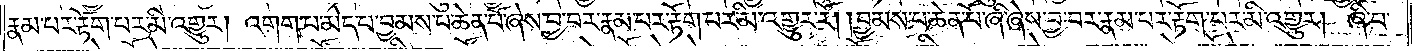རྣམ་པར་རྟོག་པར་མི་འགྱུར། འགག་པ་མེད་པ་བྱམས་པ་ཆེན་པོ་ཞེས་བྱ་བར་རྣམ་པར་རྟོག་པར་མི་འགྱུར་རོ། །བྱམས་པ་ཆེན་པོ་ཞི་ཞེས་བྱ་བར་རྣམ་པར་རྟོག་པར་མི་འགྱུར། ཞི་བ་
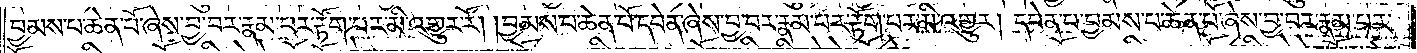བྱམས་པ་ཆེན་པོ་ཞེས་བྱ་བར་རྣམ་པར་རྟོག་པར་མི་འགྱུར་རོ། །བྱམས་པ་ཆེན་པོ་དབེན་ཞེས་བྱ་བར་རྣམ་པར་རྟོག་པར་མི་འགྱུར། དབེན་པ་བྱམས་པ་ཆེན་པོ་ཞེས་བྱ་བར་རྣམ་པར་
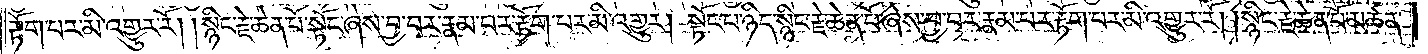རྟོག་པར་མི་འགྱུར་རོ། །སྙིང་རྗེ་ཆེན་པོ་སྟོང་ཞེས་བྱ་བར་རྣམ་པར་རྟོག་པར་མི་འགྱུར། སྟོང་པ་ཉིད་སྙིང་རྗེ་ཆེན་པོ་ཞེས་བྱ་བར་རྣམ་པར་རྟོག་པར་མི་འགྱུར་རོ། །སྙིང་རྗེ་ཆེན་པོ་མཚན་
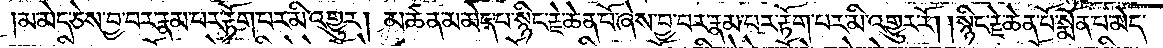མ་མེད་ཅེས་བྱ་བར་རྣམ་པར་རྟོག་པར་མི་འགྱུར། མཚན་མ་མེད་པ་སྙིང་རྗེ་ཆེན་པོ་ཞེས་བྱ་བར་རྣམ་པར་རྟོག་པར་མི་འགྱུར་རོ། །སྙིང་རྗེ་ཆེན་པོ་སྨོན་པ་མེད་
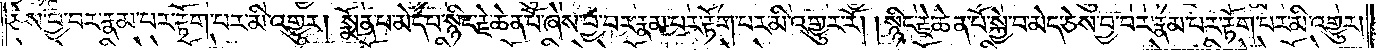ཅེས་བྱ་བར་རྣམ་པར་རྟོག་པར་མི་འགྱུར། སྨོན་པ་མེད་པ་སྙིང་རྗེ་ཆེན་པོ་ཞེས་བྱ་བར་རྣམ་པར་རྟོག་པར་མི་འགྱུར་རོ། །སྙིང་རྗེ་ཆེན་པོ་སྐྱེ་བ་མེད་ཅེས་བྱ་བར་རྣམ་པར་རྟོག་པར་མི་འགྱུར།
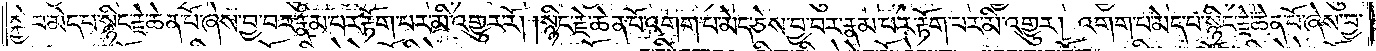སྐྱེ་བ་མེད་པ་སྙིང་རྗེ་ཆེན་པོ་ཞེས་བྱ་བར་རྣམ་པར་རྟོག་པར་མི་འགྱུར་རོ། །སྙིང་རྗེ་ཆེན་པོ་འགག་པ་མེད་ཅེས་བྱ་བར་རྣམ་པར་རྟོག་པར་མི་འགྱུར། འགག་པ་མེད་པ་སྙིང་རྗེ་ཆེན་པོ་ཞེས་བྱ་
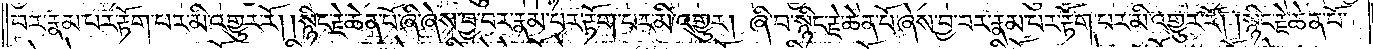བར་རྣམ་པར་རྟོག་པར་མི་འགྱུར་རོ། །སྙིང་རྗེ་ཆེན་པོ་ཞི་ཞེས་བྱ་བར་རྣམ་པར་རྟོག་པར་མི་འགྱུར། ཞི་བ་སྙིང་རྗེ་ཆེན་པོ་ཞེས་བྱ་བར་རྣམ་པར་རྟོག་པར་མི་འགྱུར་རོ། །སྙིང་རྗེ་ཆེན་པོ་
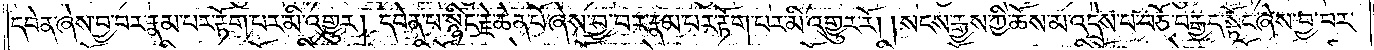དབེན་ཞེས་བྱ་བར་རྣམ་པར་རྟོག་པར་མི་འགྱུར། དབེན་པ་སྙིང་རྗེ་ཆེན་པོ་ཞེས་བྱ་བར་རྣམ་པར་རྟོག་པར་མི་འགྱུར་རོ། །སངས་རྒྱས་ཀྱི་ཆོས་མ་འདྲེས་པ་བཅོ་བརྒྱད་སྟོང་ཞེས་བྱ་བར་
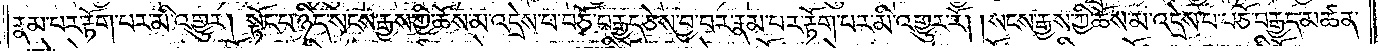རྣམ་པར་རྟོག་པར་མི་འགྱུར། སྟོང་པ་ཉིད་སངས་རྒྱས་ཀྱི་ཆོས་མ་འདྲེས་པ་བཅོ་བརྒྱད་ཅེས་བྱ་བར་རྣམ་པར་རྟོག་པར་མི་འགྱུར་རོ། །སངས་རྒྱས་ཀྱི་ཆོས་མ་འདྲེས་པ་བཅོ་བརྒྱད་མཚན་
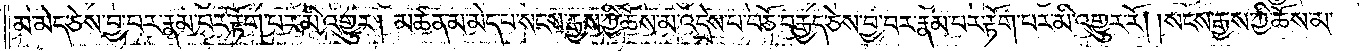མ་མེད་ཅེས་བྱ་བར་རྣམ་པར་རྟོག་པར་མི་འགྱུར། མཚན་མ་མེད་པ་སངས་རྒྱས་ཀྱི་ཆོས་མ་འདྲེས་པ་བཅོ་བརྒྱད་ཅེས་བྱ་བར་རྣམ་པར་རྟོག་པར་མི་འགྱུར་རོ། །སངས་རྒྱས་ཀྱི་ཆོས་མ་
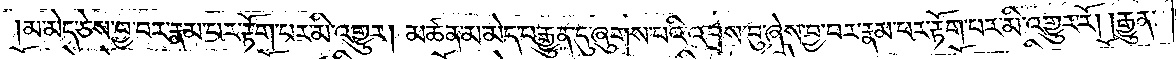མ་མེད་ཅེས་བྱ་བར་རྣམ་པར་རྟོག་པར་མི་འགྱུར། མཚན་མ་མེད་པ་རྒྱུན་དུ་ཞུགས་པའི་འབྲས་བུ་ཞེས་བྱ་བར་རྣམ་པར་རྟོག་པར་མི་འགྱུར་རོ། །རྒྱུན་
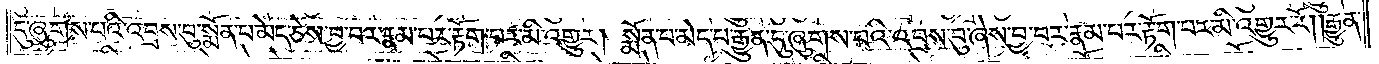དུ་ཞུགས་པའི་འབྲས་བུ་སྨོན་པ་མེད་ཅེས་བྱ་བར་རྣམ་པར་རྟོག་པར་མི་འགྱུར། སྨོན་པ་མེད་པ་རྒྱུན་དུ་ཞུགས་པའི་འབྲས་བུ་ཞེས་བྱ་བར་རྣམ་པར་རྟོག་པར་མི་འགྱུར་རོ། །རྒྱུན་
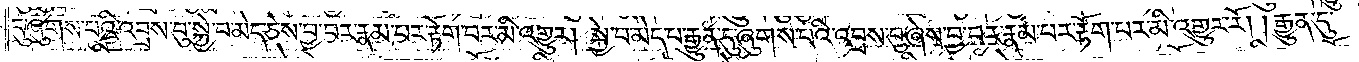དུ་ཞུགས་པའི་འབྲས་བུ་སྐྱེ་བ་མེད་ཅེས་བྱ་བར་རྣམ་པར་རྟོག་པར་མི་འགྱུར། སྐྱེ་བ་མེད་པ་རྒྱུན་དུ་ཞུགས་པའི་འབྲས་བུ་ཞེས་བྱ་བར་རྣམ་པར་རྟོག་པར་མི་འགྱུར་རོ། །རྒྱུན་དུ་
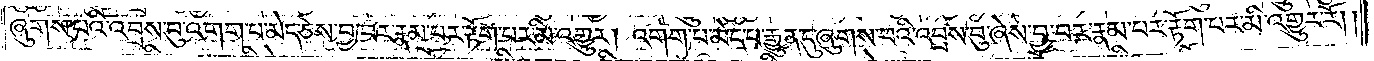ཞུགས་པའི་འབྲས་བུ་འགག་པ་མེད་ཅེས་བྱ་བར་རྣམ་པར་རྟོག་པར་མི་འགྱུར། འགག་པ་མེད་པ་རྒྱུན་དུ་ཞུགས་པའི་འབྲས་བུ་ཞེས་བྱ་བར་རྣམ་པར་རྟོག་པར་མི་འགྱུར་རོ། །
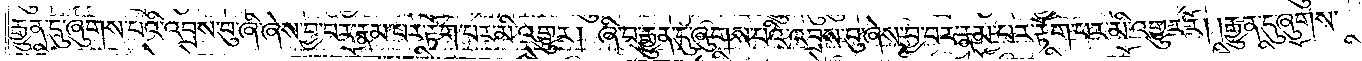རྒྱུན་དུ་ཞུགས་པའི་འབྲས་བུ་ཞི་ཞེས་བྱ་བར་རྣམ་པར་རྟོག་པར་མི་འགྱུར། ཞི་བ་རྒྱུན་དུ་ཞུགས་པའི་འབྲས་བུ་ཞེས་བྱ་བར་རྣམ་པར་རྟོག་པར་མི་འགྱུར་རོ། །རྒྱུན་དུ་ཞུགས་
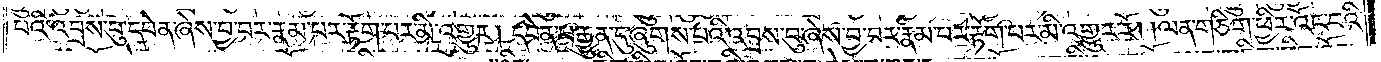པའི་འབྲས་བུ་དབེན་ཞེས་བྱ་བར་རྣམ་པར་རྟོག་པར་མི་འགྱུར། དབེན་པ་རྒྱུན་དུ་ཞུགས་པའི་འབྲས་བུ་ཞེས་བྱ་བར་རྣམ་པར་རྟོག་པར་མི་འགྱུར་རོ། །ལན་གཅིག་ཕྱིར་འོང་བའི་
